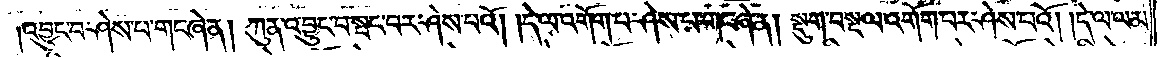འབྱུང་བ་ཤེས་པ་གང་ཞེ་ན། ཀུན་འབྱུང་བ་སྤང་བར་ཤེས་པའོ། །དེ་ལ་འགོག་པ་ཤེས་པ་གང་ཞེ་ན། སྡུག་བསྔལ་འགོག་པར་ཤེས་པའོ། །དེ་ལ་ལམ་
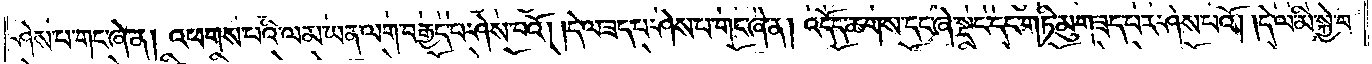ཤེས་པ་གང་ཞེ་ན། འཕགས་པའི་ལམ་ཡན་ལག་བརྒྱད་པ་ཤེས་བྱའོ། །དེ་ལ་ཟད་པ་ཤེས་པ་གང་ཞེ་ན། འདོད་ཆགས་དང་ཞེ་སྡང་དང་གཏི་མུག་ཟད་པར་ཤེས་པའོ། །དེ་ལ་མི་སྐྱེ་བ་
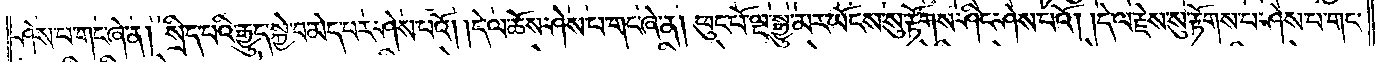ཤེས་པ་གང་ཞེ་ན། སྲིད་པའི་རྒྱུད་སྐྱེ་བ་མེད་པར་ཤེས་པའོ། །དེ་ལ་ཆོས་ཤེས་པ་གང་ཞེ་ན། ཕུང་པོ་ལྔ་སྒྱུ་མར་ཡོངས་སུ་རྟོགས་ཤིང་ཤེས་པའོ། །དེ་ལ་རྗེས་སུ་རྟོགས་པ་ཤེས་པ་གང་
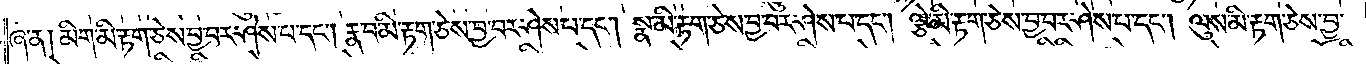ཞེ་ན། མིག་མི་རྟག་ཅེས་བྱ་བར་ཤེས་པ་དང༌། རྣ་བ་མི་རྟག་ཅེས་བྱ་བར་ཤེས་པ་དང༌། སྣ་མི་རྟག་ཅེས་བྱ་བར་ཤེས་པ་དང༌། ལྕེ་མི་རྟག་ཅེས་བྱ་བར་ཤེས་པ་དང༌། ལུས་མི་རྟག་ཅེས་བྱ་
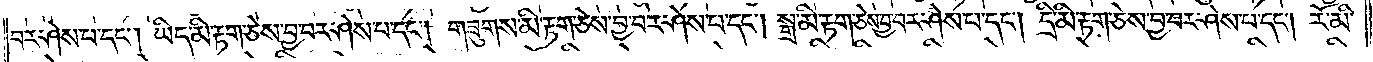བར་ཤེས་པ་དང༌། ཡིད་མི་རྟག་ཅེས་བྱ་བར་ཤེས་པ་དང༌། གཟུགས་མི་རྟག་ཅེས་བྱ་བར་ཤེས་པ་དང༌། སྒྲ་མི་རྟག་ཅེས་བྱ་བར་ཤེས་པ་དང༌། དྲི་མི་རྟག་ཅེས་བྱ་བར་ཤེས་པ་དང༌། རོ་མི་
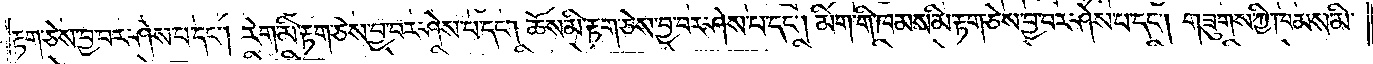རྟག་ཅེས་བྱ་བར་ཤེས་པ་དང༌། རེག་མི་རྟག་ཅེས་བྱ་བར་ཤེས་པ་དང༌། ཆོས་མི་རྟག་ཅེས་བྱ་བར་ཤེས་པ་དང༌། མིག་གི་ཁམས་མི་རྟག་ཅེས་བྱ་བར་ཤེས་པ་དང༌། གཟུགས་ཀྱི་ཁམས་མི་
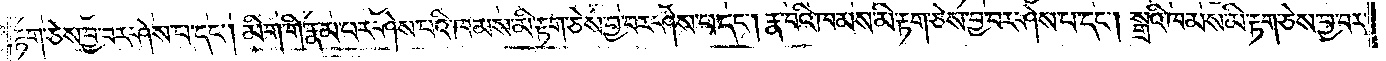རྟག་ཅེས་བྱ་བར་ཤེས་པ་དང༌། མིག་གི་རྣམ་པར་ཤེས་པའི་ཁམས་མི་རྟག་ཅེས་བྱ་བར་ཤེས་པ་དང༌། རྣ་བའི་ཁམས་མི་རྟག་ཅེས་བྱ་བར་ཤེས་པ་དང༌། སྒྲའི་ཁམས་མི་རྟག་ཅེས་བྱ་བར་
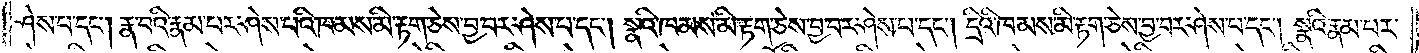ཤེས་པ་དང༌། རྣ་བའི་རྣམ་པར་ཤེས་པའི་ཁམས་མི་རྟག་ཅེས་བྱ་བར་ཤེས་པ་དང༌། སྣའི་ཁམས་མི་རྟག་ཅེས་བྱ་བར་ཤེས་པ་དང༌། དྲིའི་ཁམས་མི་རྟག་ཅེས་བྱ་བར་ཤེས་པ་དང༌། སྣའི་རྣམ་པར་
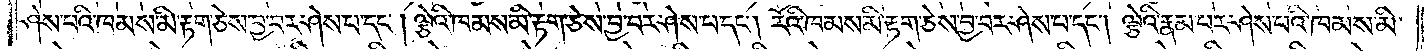ཤེས་པའི་ཁམས་མི་རྟག་ཅེས་བྱ་བར་ཤེས་པ་དང༌། ལྕེའི་ཁམས་མི་རྟག་ཅེས་བྱ་བར་ཤེས་པ་དང༌། རོའི་ཁམས་མི་རྟག་ཅེས་བྱ་བར་ཤེས་པ་དང༌། ལྕེའི་རྣམ་པར་ཤེས་པའི་ཁམས་མི་
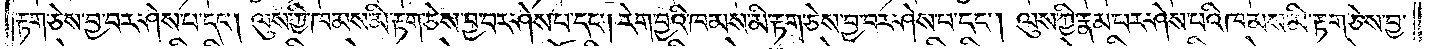རྟག་ཅེས་བྱ་བར་ཤེས་པ་དང༌། ལུས་ཀྱི་ཁམས་མི་རྟག་ཅེས་བྱ་བར་ཤེས་པ་དང༌། རེག་བྱའི་ཁམས་མི་རྟག་ཅེས་བྱ་བར་ཤེས་པ་དང༌། ལུས་ཀྱི་རྣམ་པར་ཤེས་པའི་ཁམས་མི་རྟག་ཅེས་བྱ་
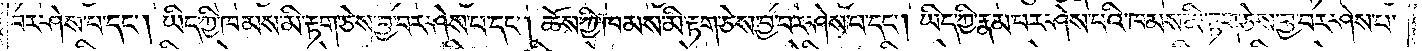བར་ཤེས་པ་དང༌། ཡིད་ཀྱི་ཁམས་མི་རྟག་ཅེས་བྱ་བར་ཤེས་པ་དང༌། ཆོས་ཀྱི་ཁམས་མི་རྟག་ཅེས་བྱ་བར་ཤེས་པ་དང༌། ཡིད་ཀྱི་རྣམ་པར་ཤེས་པའི་ཁམས་མི་རྟག་ཅེས་བྱ་བར་ཤེས་པ་
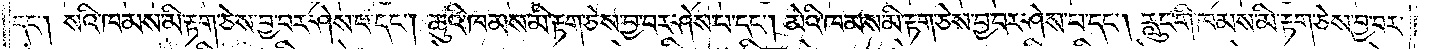དང༌། སའི་ཁམས་མི་རྟག་ཅེས་བྱ་བར་ཤེས་པ་དང༌། ཆུའི་ཁམས་མི་རྟག་ཅེས་བྱ་བར་ཤེས་པ་དང༌། མེའི་ཁམས་མི་རྟག་ཅེས་བྱ་བར་ཤེས་པ་དང༌། རླུང་གི་ཁམས་མི་རྟག་ཅེས་བྱ་བར་
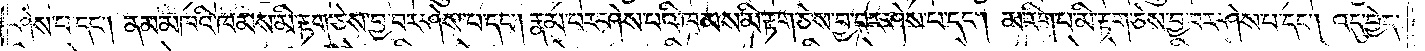ཤེས་པ་དང༌། ནམ་མཁའི་ཁམས་མི་རྟག་ཅེས་བྱ་བར་ཤེས་པ་དང༌། རྣམ་པར་ཤེས་པའི་ཁམས་མི་རྟག་ཅེས་བྱ་བར་ཤེས་པ་དང༌། མ་རིག་པ་མི་རྟག་ཅེས་བྱ་བར་ཤེས་པ་དང༌། འདུ་བྱེད་
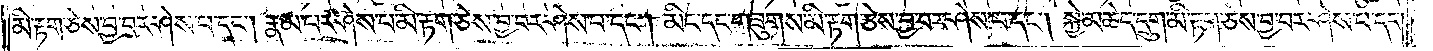མི་རྟག་ཅེས་བྱ་བར་ཤེས་པ་དང༌། རྣམ་པར་ཤེས་པ་མི་རྟག་ཅེས་བྱ་བར་ཤེས་པ་དང༌། མིང་དང་གཟུགས་མི་རྟག་ཅེས་བྱ་བར་ཤེས་པ་དང༌། སྐྱེ་མཆེད་དྲུག་མི་རྟག་ཅེས་བྱ་བར་ཤེས་པ་དང༌།
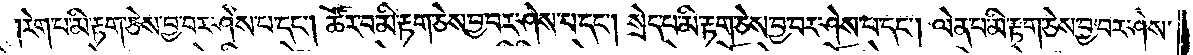རེག་པ་མི་རྟག་ཅེས་བྱ་བར་ཤེས་པ་དང༌། ཚོར་བ་མི་རྟག་ཅེས་བྱ་བར་ཤེས་པ་དང༌། སྲེད་པ་མི་རྟག་ཅེས་བྱ་བར་ཤེས་པ་དང༌། ལེན་པ་མི་རྟག་ཅེས་བྱ་བར་ཤེས་
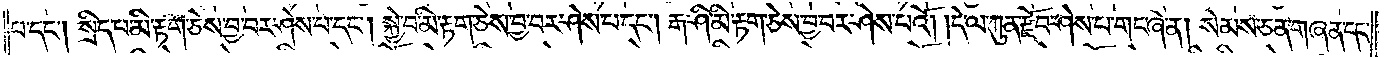པ་དང༌། སྲིད་པ་མི་རྟག་ཅེས་བྱ་བར་ཤེས་པ་དང༌། སྐྱེ་བ་མི་རྟག་ཅེས་བྱ་བར་ཤེས་པ་དང༌། རྒ་ཤི་མི་རྟག་ཅེས་བྱ་བར་ཤེས་པའོ། །དེ་ལ་ཀུན་རྫོབ་ཤེས་པ་གང་ཞེ་ན། སེམས་ཅན་གཞན་དང་
